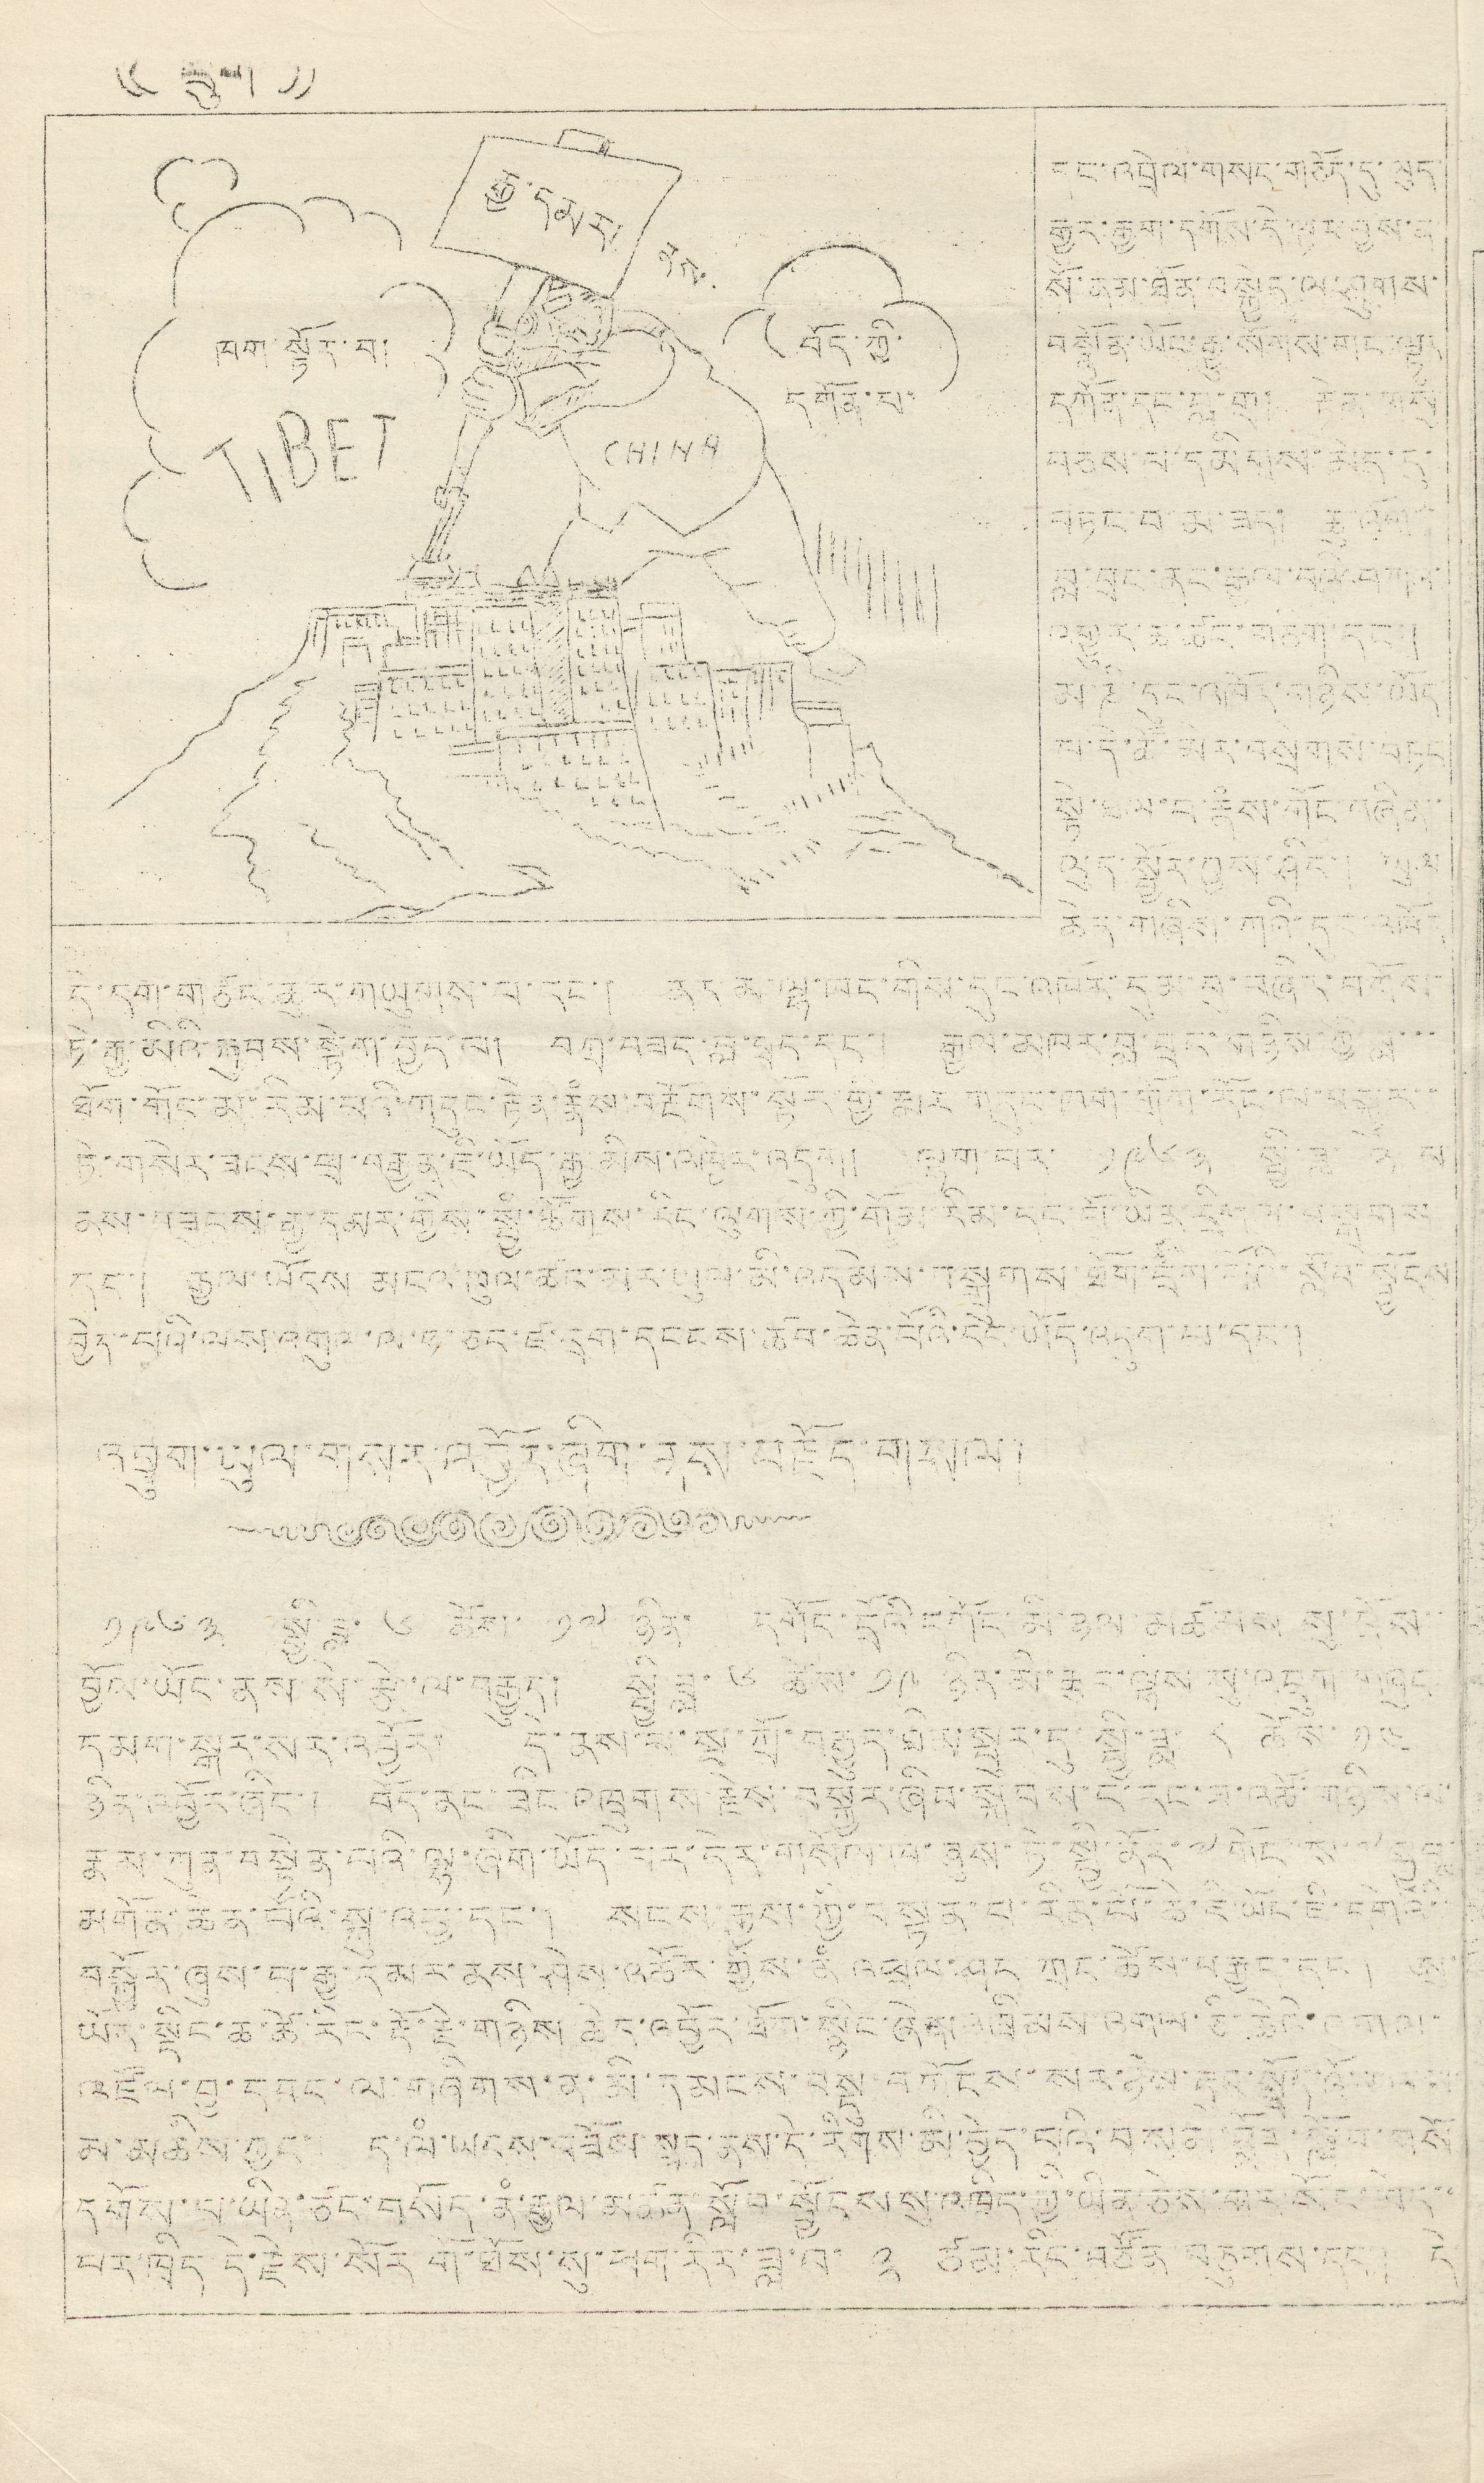(( དྲུག ))
རྒྱ་དམར།
ནས་
བོད་ཀྱི་
དགོན་པ་
ཁག་སྟོར་བ།
CHINA
TIBET
དང་འབྲེལ་གསལ་གཅོད་དུ་ལུད་
རྒྱར་རྒྱག་དགོངས་དེ་ལྟར་བྱས་ན་
སོ་ནམ་ཐོན་བསྐྱེད་ལ་ཤུགས་
བསྣོན་ཡོང་རྒྱུ་སོགས་གང་ལྟར
དཀོན་དང་བླ་གྲ། རྟེན་གསུཾ
བཅས་ལ་དམིསག་མེད་དུ་
བཏང་བ་མ་ཟད། ཆུ་འོག་
བླ་བྲང་ནང་རྒྱལ་བའི་བཀའ་
འགྱུར་ཆ་ཙང་གཅིག་དང་།
མ་ཎི་དུང་འཁོར་གཉིས་ཡོད་
པ་དེ་ཚོ་མེར་བསྲེགས་བཏང
སྟེ་ཐལ་བ་རྣཾས་གོང་བཞིན་་
ལུད་སྦྱོར་བྱས་ཤིང་། ཡུལ་
ཆེན་གཞིས་ཀའི་དུང་འཁོར་
དེ་དག་གཙང་ཆུར་གཡུགས་པ་དང་། ནར་མ་ལྷ་ཁང་གིས་དུང་འཁོར་དུ་མ་བུ་བཞིར་བཀོས་
ཏེ་རྒྱ་མིའི་རྐུབས་སྟེག་བྱེད་པ། བཀྲ་བཟད་བླ་བྲང་དང་། རྒྱལ་མཁར་བླ་བྲང་གཉིས་ཀྱི་བླ་་་
ཐོག་གོང་མ་རིམ་པའི་གདུང་རྟེན་རྣཾས་བརྔོགས་སྟོར་གྱི་རྨར་གདུང་ཁག་གོས་རོང་ལ་བསྐུར་་
ཏེ་གསེར་ཟངས་ཕྲ་བརྒྱན་ཇི་ཡོད་རྒྱ་མིས་འཁྱེར་འདུག། ལྷག་པར་ ༡༩༦༣ སྤྱི་ཟླ་
༦
ཉེ པ
ནས་བཟུངས་རྒྱ་དམར་གྱིས་སྤྱི་ཚོགས་རིང་ལུགས་ཀྱི་གོམ་རིམ་དང་པོ་ཡིན་དྲིན་ལ་བསྒྲགས
དང་། རྒྱལ་ཡོངས མངའ་ཁུལ་ཚང་མར་ཡུལ་མི་འདེམས་བསྒྲགས་ཐོག་དྲག་གཞི་སློབ་སྦྱོངས
བྱེད་པའི་ལས་འགུལ་ལ་ཧ་ཅང་ཛ་དྲག་དངངས་ཚབ་ཆེན་པོའི་དེང་ཡོད་འདུག་པ་དང་།
འབྲུག་ཡུལ་གསར་འབྱོར་ཞག་ནས་བརྗོད་གསལ།
༡༩༦༣ སྤྱི་ཟླ་ ༦ ཚེས་ ༡༧ ཉིན་ དགོང་དྲོའི་དགོང་མི་ཉལ་མཚམས སུ་བྲོས་་
བྱོལ་ཡོང་ནས་སི་རྩེ་ལ་བརྒྱུད། སྤྱི་ཟླ་ ༦ ཚེས་ ༡༩ ཉིན་མི་ཆུང་ལྷས་སུ་འབྲུག་གཞུང
དམག་སྒར་སར་འབྱོར། དེ་ནས་པ་སྦ་ཀྲོ་བརྒྱུད་ཐིམ་སྤུར་དུ་སྤྱི་ཟླ་ ༧ ཚེས་ ༡༤
ཉིན་འབྱོར་ཞིང་། བོད་ནང་ཟིང་འཁྲུགས་རྗེས་བསྐྱར་ཞིབ་སྐབས་ད་རང་ཟ་འཚོ་གཉིས་ལ་
རྣམ་ཀུན་བསྟེན་པའི་ལྷ་ཞིག་ཡོད་པར་དེར་གསོལ་ཁ་ཞུས་ཏེ་སྤྱི་ནོར་༸གོང་ས་༸སྐྱབས་
མགོན་ཆེན་པོའི་སྐུ་འཕྱ་དང་། སངས་རྒྱས་ཀྱི་བསྟན་པ་རིན་པོ་ཆེ་ཇི་ཡོད་ཇི་དགེའི་
བསྒྱོར་ཞུས་པ་རྒྱ་དེ་མར་ནས་ཤེས་འཚོར་གྱིས་ནཾ འཕྲལ་ཤང ཀྲང་ཚེས་བརྒྱད་དང་། ཨུ་
ཡོར་སྡིང་ཆ་ཚེ་རིང་རྡོ་རྗེ་གཉིས་ཆེད་འབྱོར་ཐོག་སྙིང་ཞེས་འཁྲིམས་འགལ་ཅི་ཆེའི་འགལ་
འཛོལ་བྱ་དབང་ལ་གཞིགས་ན་མི་དམངས་བསྡུ་བཀོངས་སར་ཉེས་རྡུང་སྣོད་འོ་་་་་
མ་མཆིས་ཀྱང་། ད་ལཾ་ཡངས་བཟོས་སླད་ནས་དེ་རིགས་མི་བྱེད་པའི་བསམ་བློར་སློབ་གསོ
དགོས་པ་ཡིན་ཙང་བསོད་ནཾ་རྒྱལ་མཚན་སློབ་སྦྱོངས་སུ་འཁྲིད་ཀྱི་ཡིན་ཅེས་གར་སོང་མེད་་
པར་ཁྲིད་དེ་རྗེས་སོར་གོ་ཐོས་སུ་ཕག་རིར་ཟླ་བ་ ༣ ཙམ་རིང་བཙོན་བཅུགས་དང་། དེ
